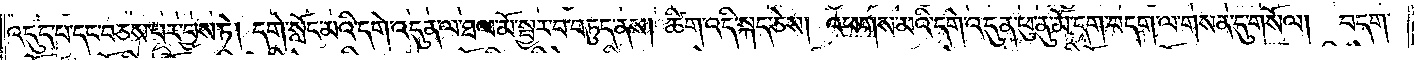འདུད་པ་དང་བཅས་པར་བྱས་ཏེ། དགེ་སློང་མའི་དགེ་འདུན་ལ་ཐལ་མོ་སྦྱར་བ་བཏུད་ནས། ཚིག་འདི་སྐད་ཅེས། འཕགས་མའི་དགེ་འདུན་ཕུ་ནུ་མོ་དག་བདག་ལ་གསན་དུ་གསོལ། བདག་
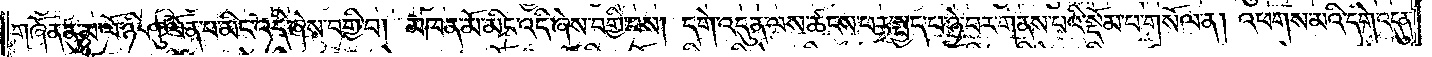གཞོན་ནུ་མ་ལོ་ཉི་ཤུ་ལོན་པ་མིང་འདི་ཞེས་བགྱི་བ། མཁན་མོ་མིང་འདི་ཞེས་བགྱི་བས། དགེ་འདུན་ལས་ཚངས་པར་སྤྱད་པ་ཉེ་བར་གནས་པའི་སྡོམ་པ་གསོལ་ན། འཕགས་མའི་དགེ་འདུན་
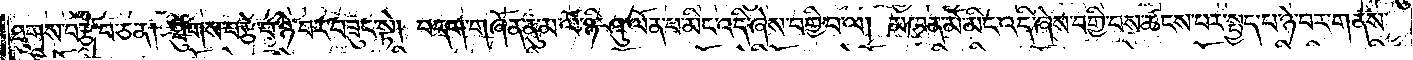ཐུགས་བརྩེ་བ་ཅན། ཐུགས་བརྩེ་བ་ཉེ་བར་བཟུང་སྟེ། བདག་གཞོན་ནུ་མ་ལོ་ཉི་ཤུ་ལོན་པ་མིང་འདི་ཞེས་བགྱི་བ་ལ། མཁན་མོ་མིང་འདི་ཞེས་བགྱི་བས་ཚངས་པར་སྤྱད་པ་ཉེ་བར་གནས་
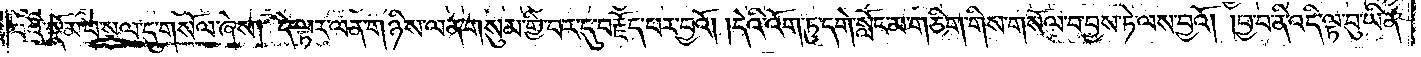པའི་སྡོམ་པ་སྩལ་དུ་གསོལ་ཞེས། དེ་ལྟར་ལན་གཉིས་ལན་གསུམ་གྱི་བར་དུ་བརྗོད་པར་བྱའོ། །དེའི་འོག་ཏུ་དགེ་སློང་མ་གཅིག་གིས་གསོལ་བ་བྱས་ཏེ་ལས་བྱའོ། །བྱ་བ་ནི་འདི་ལྟ་བུ་ཡིན་
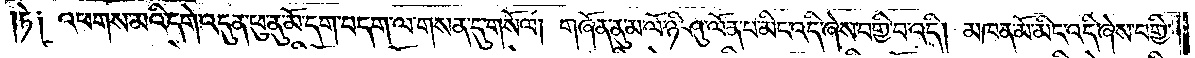ཏེ༑ འཕགས་མའི་དགེ་འདུན་ཕུ་ནུ་མོ་དག་བདག་ལ་གསན་དུ་གསོལ། གཞོན་ནུ་མ་ལོ་ཉི་ཤུ་ལོན་པ་མིང་འདི་ཞེས་བགྱི་བ་འདི། མཁན་མོ་མིང་འདི་ཞེས་བགྱི་
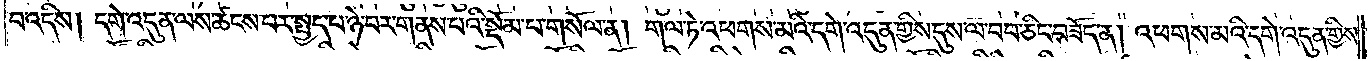བ་འདིས། དགེ་འདུན་ལས་ཚངས་པར་སྤྱད་པ་ཉེ་བར་གནས་པའི་སྡོམ་པ་གསོལ་ན། གལ་ཏེ་འཕགས་མའི་དགེ་འདུན་གྱིས་དུས་ལ་བབ་ཅིང་བཟོད་ན། འཕགས་མའི་དགེ་འདུན་གྱིས་
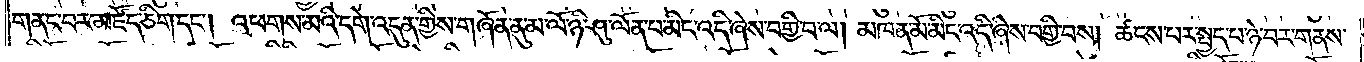གནང་བར་མཛོད་ཅིག་དང༌། འཕགས་མའི་དགེ་འདུན་གྱིས་གཞོན་ནུ་མ་ལོ་ཉི་ཤུ་ལོན་པ་མིང་འདི་ཞེས་བགྱི་བ་ལ། མཁན་མོ་མིང་འདི་ཞེས་བགྱི་བས། ཚངས་པར་སྤྱད་པ་ཉེ་བར་གནས་
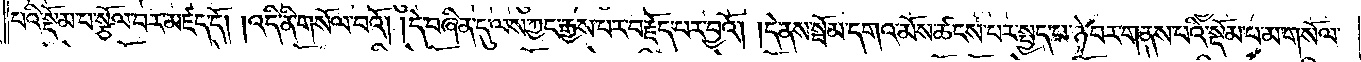པའི་སྡོམ་པ་སྩོལ་པར་མཛད་དོ། །འདི་ནི་གསོལ་བའོ། །དེ་བཞིན་དུ་ལས་ཀྱང་རྒྱས་པར་བརྗོད་པར་བྱའོ། །དེ་ནས་སྦོམ་དགའ་མོས་ཚངས་པར་སྤྱད་པ་ཉེ་བར་གནས་པའི་སྡོམ་པ་མ་གསོལ་
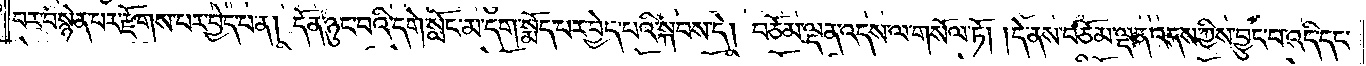བར་བསྙེན་པར་རྫོགས་པར་བྱེད་པ་ན། དོན་ཉུང་བའི་དགེ་སློང་མ་དག་སྨོད་པར་བྱེད་པའི་སྐབས་དེ། བཅོམ་ལྡན་འདས་ལ་གསོལ་ཏོ། །དེ་ནས་བཅོམ་ལྡན་འདས་ཀྱིས་བྱུང་བ་འདི་དང་
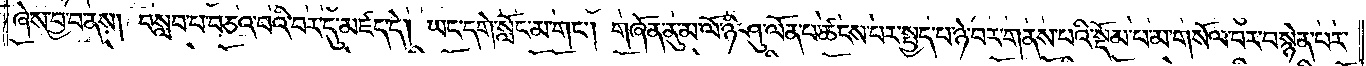ཞེས་བྱ་བ་ནས། བསླབ་པ་བཅའ་བའི་བར་དུ་མཛད་དེ། ཡང་དགེ་སློང་མ་གང༌། གཞོན་ནུ་མ་ལོ་ཉི་ཤུ་ལོན་པ་ཚངས་པར་སྤྱད་པ་ཉེ་བར་གནས་པའི་སྡོམ་པ་མ་གསོལ་བར་བསྙེན་པར་
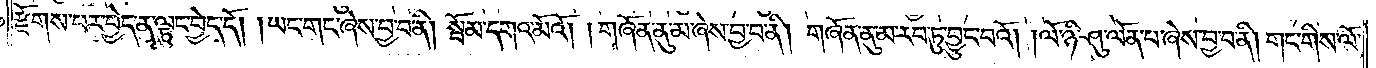རྫོགས་པར་བྱེད་ན་ལྟུང་བྱེད་དོ། །ཡང་གང་ཞེས་བྱ་བ་ནི། སྦོམ་དགའ་མོའོ། །གཞོན་ནུ་མ་ཞེས་བྱ་བ་ནི། གཞོན་ནུ་མ་རབ་ཏུ་བྱུང་བའོ། །ལོ་ཉི་ཤུ་ལོན་པ་ཞེས་བྱ་བ་ནི། གང་གིས་ལོ་
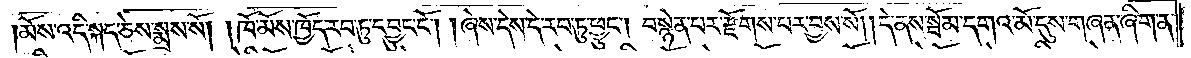།མོས་འདི་སྐད་ཅེས་སྨྲས་སོ། །ཁོ་མོས་ཁྱོད་རབ་ཏུ་དབྱུང་ངོ༌། །ཞེས་དེས་དེ་རབ་ཏུ་ཕྱུང༌། བསྙེན་པར་རྫོགས་པར་བྱས་སོ། །དེ་ནས་སྦོམ་དགའ་མོ་དུས་གཞན་ཞིག་ན་
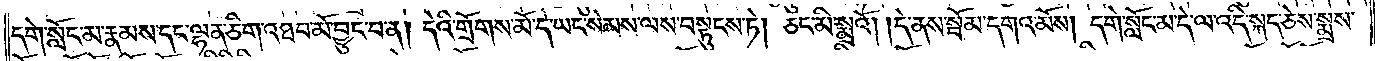དགེ་སློང་མ་རྣམས་དང་ལྷན་ཅིག་འཐབ་མོ་བྱུང་བ་ན། དེའི་གྲོགས་མོ་དེ་ཡང་སེམས་ལས་བསྟུངས་ཏེ། ཅང་མི་སྨྲའོ། །དེ་ནས་སྦོམ་དགའ་མོས། དགེ་སློང་མ་དེ་ལ་འདི་སྐད་ཅེས་སྨྲས་
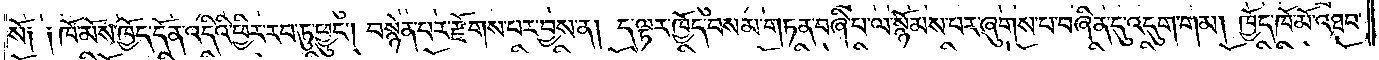སོ༑ ༑ཁོ་མོས་ཁྱོད་དོན་འདིའི་ཕྱིར་རབ་ཏུ་ཕྱུང༌། བསྙེན་པར་རྫོགས་པར་བྱས་ན། ད་ལྟར་ཁྱོད་བསམ་གཏན་བཞི་པ་ལ་སྙོམས་པར་ཞུགས་པ་བཞིན་དུ་འདུག་གམ། ཁྱོད་ཁོ་མོ་འཐབ་
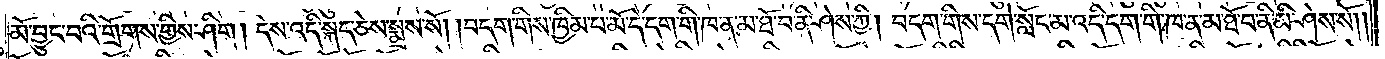མོ་བྱུང་བའི་གྲོགས་གྱིས་ཤིག །དེས་འདི་སྐད་ཅེས་སྨྲས་སོ། །བདག་གིས་ཁྱིམ་པ་མོ་དེ་དག་གི་ཁ་ན་མ་ཐོ་བ་ནི་ཤེས་ཀྱི། བདག་གིས་དགེ་སློང་མ་འདི་དག་གི་ཁ་ན་མ་ཐོ་བ་ནི་མི་ཤེས་སོ༎
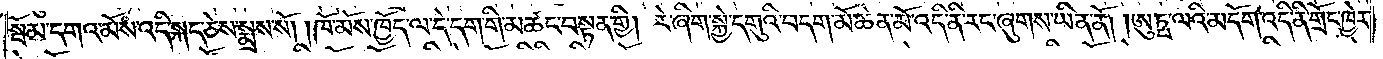སྦོམ་དགའ་མོས་འདི་སྐད་ཅེས་སྨྲས་སོ། །ཁོ་མོས་ཁྱོད་ལ་དེ་དག་གི་མཚང་བསྟན་གྱི། རེ་ཞིག་སྐྱེ་དགུའི་བདག་མོ་ཆེན་མོ་འདི་ནི་རང་ཞུགས་ཡིན་ནོ། །ཨུཏྤ་ལའི་མདོག་འདི་ནི་གྲོང་ཁྱེར་
